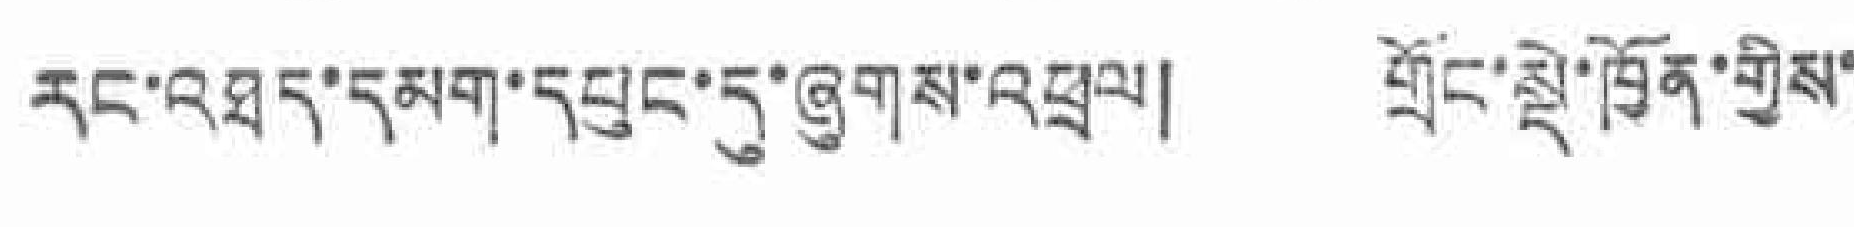རང་འཐད་དམག་དཔུང་དུ་ཞུགས་འཕྲལ། གྲོང་སྡེ་ཁྱོན་གྱིས་
